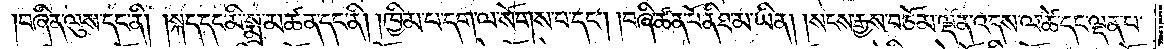བཞིན་ལུས་དང་ནི། །སྐད་དང་མི་སྨྲ་མཚན་དང་ནི། །ཁྱིམ་པ་དག་ལ་སོགས་པ་དང༌། །བཞི་ཚན་པོ་ནི་ཐ་མ་ཡིན། །སངས་རྒྱས་བཅོམ་ལྡན་འདས་ལ་ཚེ་དང་ལྡན་པ་
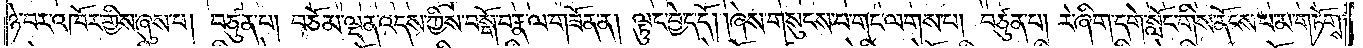ཉེ་བར་འཁོར་གྱིས་ཞུས་པ། བཙུན་པ། བཅོམ་ལྡན་འདས་ཀྱིས་བསྒོ་བ་རྣ་ལ་གཟོན་ན། ལྟུང་བྱེད་དོ། །ཞེས་གསུངས་པ་གང་ལགས་པ། བཙུན་པ། རེ་ཞིག་དགེ་སློང་གིས་ནོངས་པ་མ་གཏོགས་
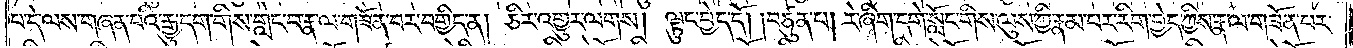པ་དེ་ལས་གཞན་པའི་རྒྱུ་དག་གིས་གླེང་བ་རྣ་ལ་གཟོན་བར་བགྱིད་ན། ཅིར་འགྱུར་ལགས། ལྟུང་བྱེད་དོ། །བཙུན་པ། རེ་ཞིག་དགེ་སློང་གིས་ལུས་ཀྱི་རྣམ་པར་རིག་བྱེད་ཀྱིས་རྣ་ལ་གཟོན་པར་
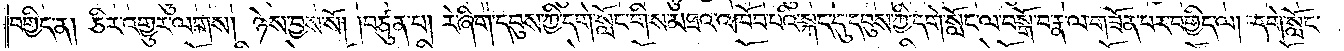བགྱིད་ན། ཅིར་འགྱུར་ལགས། ཉེས་བྱས་སོ། །བཙུན་པ། རེ་ཞིག་དབུས་ཀྱི་དགེ་སློང་གིས་མཐའ་འཁོབ་པའི་སྐད་དུ་དབུས་ཀྱི་དགེ་སློང་ལ་བསྒོ་བ་རྣ་ལ་གཟོན་པར་བགྱིད་ལ། དགེ་སློང་
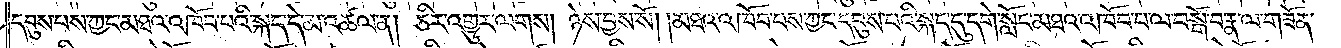དབུས་པས་ཀྱང་མཐའ་འཁོབ་པའི་སྐད་དེ་མ་འཚལ་ན། ཅིར་འགྱུར་ལགས། ཉེས་བྱས་སོ། །མཐའ་འཁོབ་པས་ཀྱང་དབུས་པའི་སྐད་དུ་དགེ་སློང་མཐའ་འཁོབ་པ་ལ་བསྒོ་བ་རྣ་ལ་གཟོན་
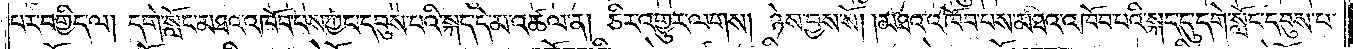པར་བགྱིད་ལ། དགེ་སློང་མཐའ་འཁོབ་པས་ཀྱང་དབུས་པའི་སྐད་དེ་མ་འཚལ་ན། ཅིར་འགྱུར་ལགས། ཉེས་བྱས་སོ། །མཐའ་འཁོབ་པས་མཐའ་འཁོབ་པའི་སྐད་དུ་དགེ་སློང་དབུས་པ་
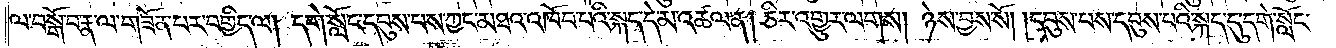ལ་བསྒོ་བ་རྣ་ལ་གཟོན་པར་བགྱིད་ལ། དགེ་སློང་དབུས་པས་ཀྱང་མཐའ་འཁོབ་པའི་སྐད་དེ་མ་འཚལ་ན། ཅིར་འགྱུར་ལགས། ཉེས་བྱས་སོ། །དབུས་པས་དབུས་པའི་སྐད་དུ་དགེ་སློང་
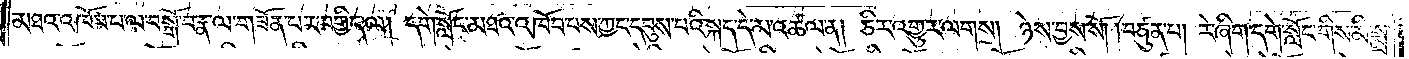མཐའ་འཁོབ་པ་ལ་བསྒོ་བ་རྣ་ལ་གཟོན་པར་བགྱིད་ལ། དགེ་སློང་མཐའ་འཁོབ་པས་ཀྱང་དབུས་པའི་སྐད་དེ་མ་འཚལ་ན། ཅིར་འགྱུར་ལགས། ཉེས་བྱས་སོ། །བཙུན་པ། རེ་ཞིག་དགེ་སློང་གིས་མི་སྨྲ་
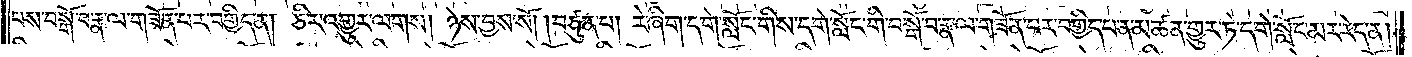པས་བསྒོ་བ་རྣ་ལ་གཟོན་པར་བགྱིད་ན། ཅིར་འགྱུར་ལགས། ཉེས་བྱས་སོ། །བཙུན་པ། རེ་ཞིག་དགེ་སློང་གིས་དགེ་སློང་གི་བསྒོ་བ་རྣ་ལ་གཟོན་པར་བགྱིད་པ་ན་མཚན་གྱུར་ཏེ་དགེ་སློང་མར་རེད་ན།
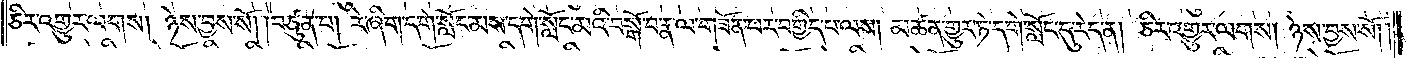ཅིར་འགྱུར་ལགས། ཉེས་བྱས་སོ། །བཙུན་པ། རེ་ཞིག་དགེ་སློང་མས་དགེ་སློང་མའི་བསྒོ་བ་རྣ་ལ་གཟོན་པར་བགྱིད་པ་ལས། མཚན་གྱུར་ཏེ་དགེ་སློང་དུ་རེད་ན། ཅིར་འགྱུར་ལགས། ཉེས་བྱས་སོ། །
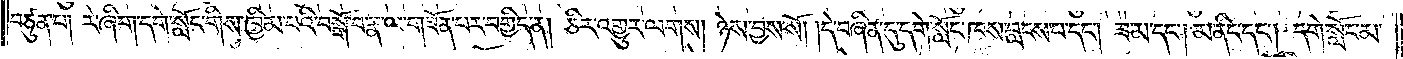བཙུན་པ། རེ་ཞིག་དགེ་སློང་གིས་ཁྱིམ་བའི་བསྒོ་བ་རྣ་ལ་གཟོན་པར་བགྱིད་ན། ཅིར་འགྱུར་ལགས། ཉེས་བྱས་སོ། །དེ་བཞིན་དུ་དགེ་སློང་ཁས་བླངས་པ་དང༌། ཟ་མ་དང༌། མ་ནིང་དང༌། དགེ་སློང་མ་
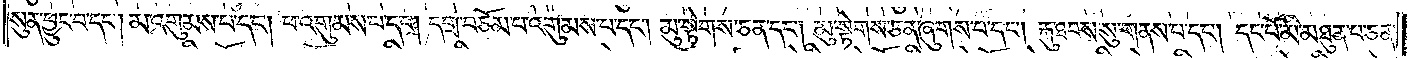སུན་ཕྱུང་བ་དང༌། མ་འགུམས་པ་དང༌། ཕ་འགུམས་པ་དང༌། དགྲ་བཅོམ་པ་འགུམས་པ་དང༌། མུ་སྟེགས་ཅན་དང༌། མུ་སྟེགས་ཅན་ཞུགས་པ་དང༌། རྐུ་ཐབས་སུ་གནས་པ་དང༌། དང་པོ་མི་མཐུན་པ་ཅན་
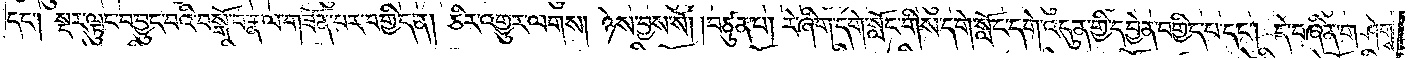དང༌། སྔར་ལྟུང་བ་བྱུང་བའི་བསྒོ་བ་རྣ་ལ་གཟོན་པར་བགྱིད་ན། ཅིར་འགྱུར་ལགས། ཉེས་བྱས་སོ། །བཙུན་པ། རེ་ཞིག་དགེ་སློང་གིས་དགེ་སློང་དགེ་འདུན་གྱི་དབྱེན་བགྱིད་པ་དང༌། དེ་བཞིན་གཤེགས་
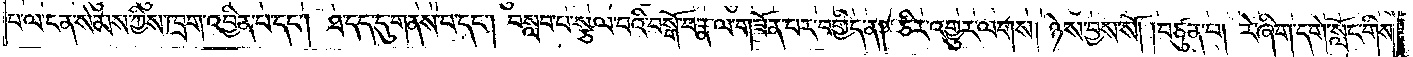པ་ལ་ངན་སེམས་ཀྱིས་ཁྲག་འབྱིན་པ་དང༌། ཐ་དད་དུ་གནས་པ་དང༌། བསླབ་པ་སྩལ་བའི་བསྒོ་བ་རྣ་ལ་གཟོན་པར་བགྱིད་ན། ཅིར་འགྱུར་ལགས། ཉེས་བྱས་སོ། །བཙུན་པ། རེ་ཞིག་དགེ་སློང་གིས་
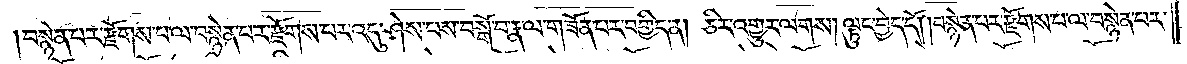།བསྙེན་པར་རྫོགས་པ་ལ་བསྙེན་པར་རྫོགས་པར་འདུ་ཤེས་པས་བསྒོ་བ་རྣ་ལ་གཟོན་པར་བགྱིད་ན། ཅིར་འགྱུར་ལགས། ལྟུང་བྱེད་དོ། །བསྙེན་པར་རྫོགས་པ་ལ་བསྙེན་པར་
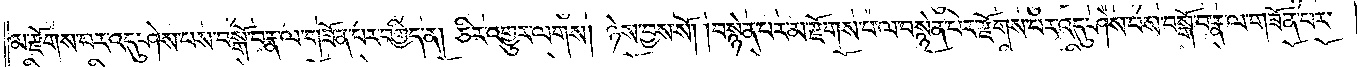མ་རྫོགས་པར་འདུ་ཤེས་པས་བསྒོ་བ་རྣ་ལ་གཟོན་པར་བགྱིད་ན། ཅིར་འགྱུར་ལགས། ཉེས་བྱས་སོ། །བསྙེན་པར་མ་རྫོགས་པ་ལ་བསྙེན་པར་རྫོགས་པར་འདུ་ཤེས་པས་བསྒོ་བ་རྣ་ལ་གཟོན་པར་
